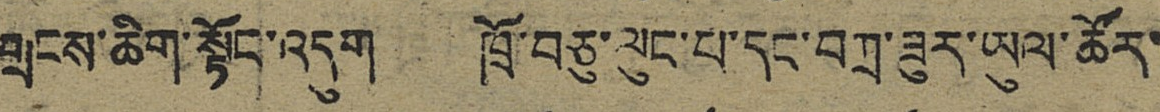གྲངས་ཆིག་སྟོང་འདུག ཁྲོ་བཅུ་ལུང་པ་དང་བཀྲ་ཟུར་ཡུལ་ཚོར་
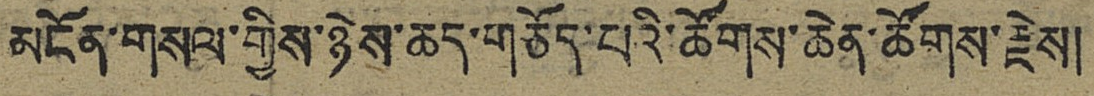མངོན་གསལ་གྱིས་ཉེས་ཆད་གཅོད་པའི་ཚོགས་ཆེན་ཚོགས་རྗེས།
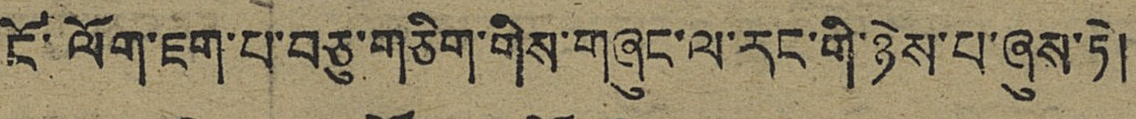ངོ་ལོག་ཇག་པ་བཅུ་གཅིག་གིས་གཞུང་ལ་རང་གི་ཉེས་པ་ཞུས་ཏེ།
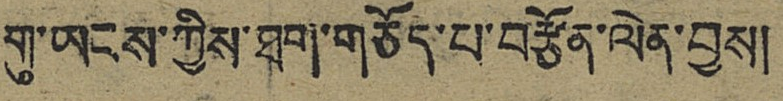གུ་ཡངས་ཀྱིས་ཐག་གཅོད་པ་བརྩོན་ལེན་བྱས།
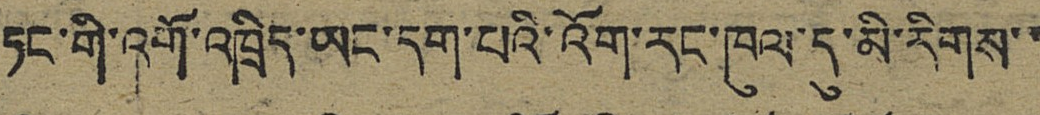ཏང་གི་འགོ་འཁྲིད་ཡང་དག་པའི་འོག་རང་ཁུལ་དུ་མི་རིགས་་
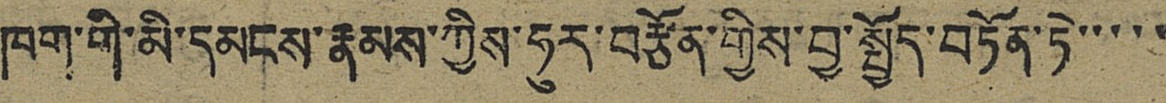ཁག་གི་མི་དམངས་རྣམས་ཀྱིས་ཧུར་བརྩོན་གྱིས་བྱ་སྤྱོད་བཏོན་ཏེ་་་་་
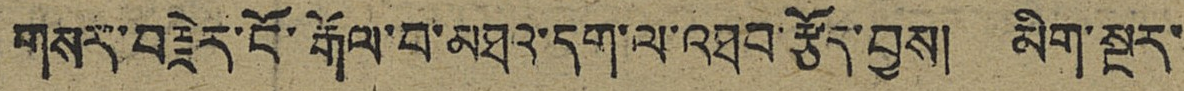གསར་བརྗེར་ངོ་རྒོལ་བ་མཐའ་དག་ལ་འཐབ་རྩོད་བྱས། མིག་སྔར་
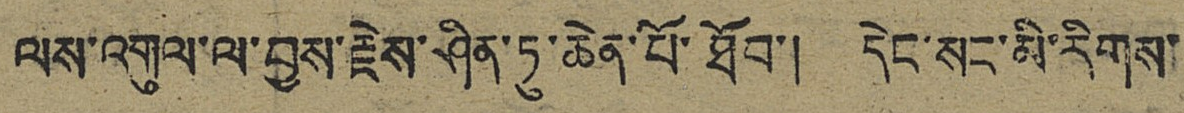ལས་འགུལ་ལ་བྱས་རྗེས་ཤིན་ཏུ་ཆེན་པོ་ཐོབ་། དེང་སང་མི་རིགས་
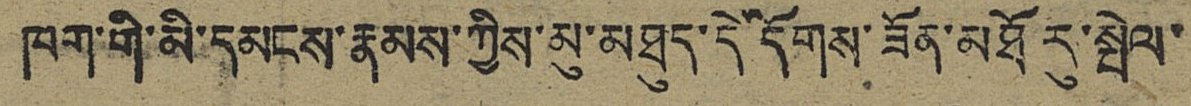ཁག་གི་མི་དམངས་རྣམས་ཀྱིས་མུ་མཐུད་དེ་དོགས་ཟོན་མཐོ རུ་སྤེལ་
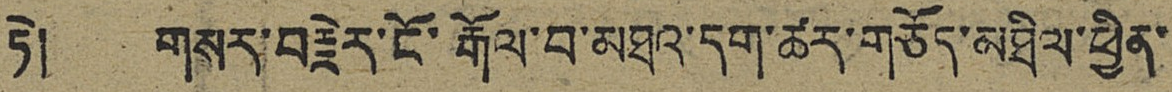ཏེ། གསར་བརྗེར་ངོ་རྒོལ་བ་མཐའ་དག་ཚར་གཅོད་མཐིལ་ཕྱིན་
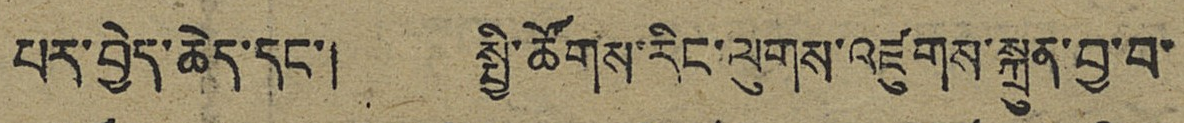པར་བྱེད་ཆེད་དང་། སྤྱི་ཚོགས་རིང་ལུགས་འཛུགས་སྐྲུན་བྱ་བ་
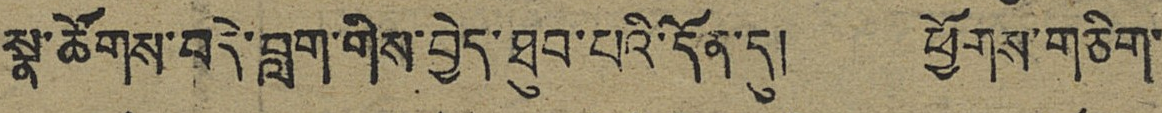སྣ་ཚོགས་བདེ་བླག་གིས་བྱེད་ཐུབ་པའི་དོན་དུ། ཕྱོགས་གཅིག་
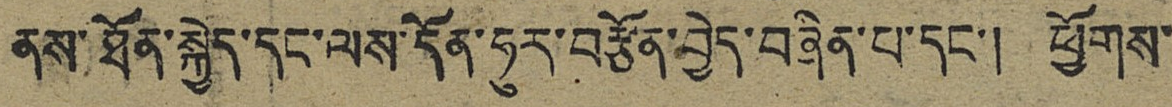ནས་ཐོན་སྐྱེད་དང་ལས་དོན་ཧུར་བརྩོན་བྱེད་བཞིན་པ་དང་། ཕྱོགས་
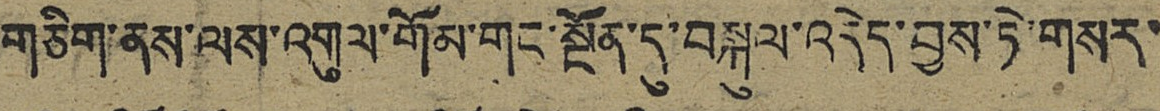གཅིག་ནས་ལས་འགུལ་གོམ་གང་སྔོན་དུ་བསྐུལ་འདེད་བྱས་ཏེ་གསར་
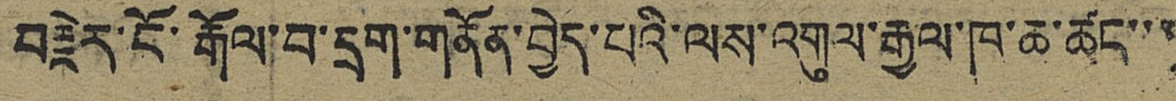བརྗེར་ངོ་རྒོལ་བ་དྲག་གནོན་བྱེད་པའི་ལས་འགུལ་རྒྱལ་ཆ་ཚང་་་
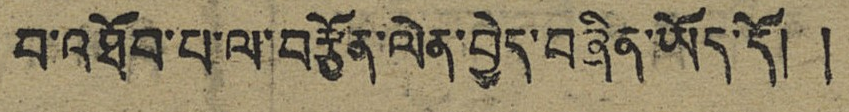བ་འཐོབ་པ་ལ་བརྩོན་ལེན་བྱེད་བཞིན་ཡོད་དོ། །
